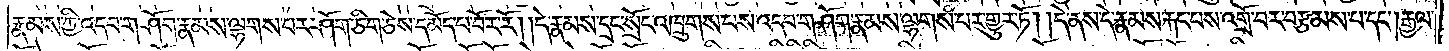རྣམས་ཀྱི་འདབ་གཤོག་རྣམས་ལྷགས་པར་ཤོག་ཅིག་ཅེས་དམོད་པ་བོར་རོ། །དེ་རྣམས་དྲང་སྲོང་འཁྲུགས་པས་འདབ་གཤོག་རྣམས་ལྷགས་པར་གྱུར་ཏོ། །དེ་ནས་དེ་རྣམས་རྐང་པས་འགྲོ་བར་བརྩམས་པ་དང༌། རྒྱལ་
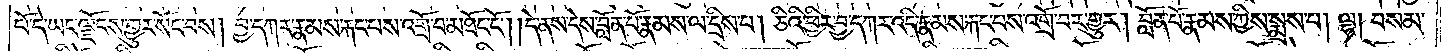པོ་དེ་ཡང་ལྗོངས་གྱུར་སོང་བས། བྱ་དཀར་རྣམས་རྐང་པས་འགྲོ་བ་མཐོང་ངོ༌། །དེ་ནས་དེས་བློན་པོ་རྣམས་ལ་དྲིས་པ། ཅིའི་ཕྱིར་བྱ་དཀར་འདི་རྣམས་རྐང་པས་འགྲོ་བར་གྱུར། བློན་པོ་རྣམས་ཀྱིས་སྨྲས་པ། ལྷ། བསམ་
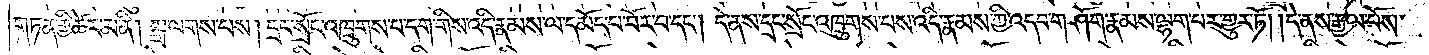གཏན་གྱི་ཚེར་མ་ནི། སྒྲ་ལགས་པས། དྲང་སྲོང་འཁྲུགས་པ་དག་གིས་འདི་རྣམས་ལ་དམོད་པ་བོར་བ་དང༌། དེ་ནས་དྲང་སྲོང་འཁྲུགས་པས་འདི་རྣམས་ཀྱི་འདབ་གཤོག་རྣམས་ལྷག་པར་གྱུར་ཏོ། །དེ་ནས་རྒྱལ་པོས་
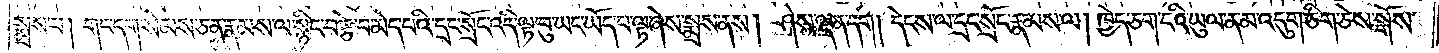སྨྲས་པ། གང་དག་སེམས་ཅན་རྣམས་ལ་སྙིང་བརྩེ་བ་མེད་པའི་དྲང་སྲོང་འདི་ལྟ་བུ་ཡང་ཡོད་པ་ལྟ་ཞེས་སྨྲས་ནས། ཤེས་ལྡན་དག། དེངས་ལ་དྲང་སྲོང་རྣམས་ལ། ཁྱེད་ཅག་ངའི་ཡུལ་ན་མ་འདུག་ཅིག་ཅེས་སྒོས་
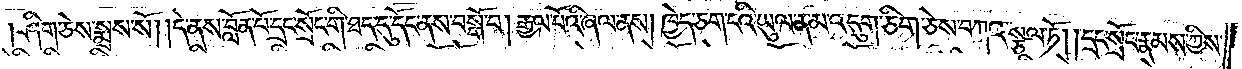ཤིག་ཅེས་སྨྲས་སོ། །དེ་ནས་བློན་པོ་དྲང་སྲོང་གི་ཐད་དུ་དོང་ནས་བསྒོ་བ། རྒྱལ་པོའི་ཞལ་ནས། ཁྱེད་ཅག་ངའི་ཡུལ་ན་མ་འདུག་ཅིག་ཅེས་བཀའ་སྩལ་ཏོ། །དྲང་སྲོང་རྣམས་ཀྱིས་
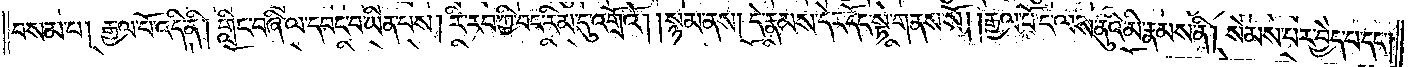བསམ་པ། རྒྱལ་པོ་འདི་ནི། གླིང་བཞི་ལ་དབང་བ་ཡིན་པས། རི་རབ་ཀྱི་བང་རིམ་དུ་འགྲོའོ། །སྙམ་ནས། དེ་རྣམས་དེར་དོང་སྟེ་གནས་སོ། །རྒྱལ་པོ་ང་ལས་ནུའི་མི་རྣམས་ནི། སེམས་པར་བྱེད་པ་དང༌།
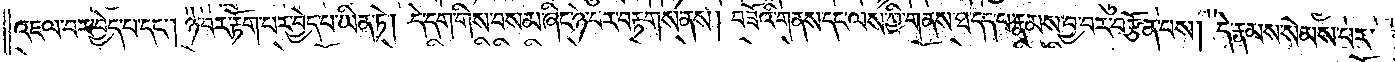འཇལ་བར་བྱེད་པ་དང༌། ཉེ་བར་རྟོག་པར་བྱེད་པ་ཡིན་ཏེ། དེ་དག་གིས་བསམ་ཞིང་ཉེ་བར་བརྟགས་ནས། བཟོའི་གནས་དང་ལས་ཀྱི་གནས་ཐ་དད་པ་རྣམས་བྱ་བར་བརྩོན་པས། དེ་རྣམས་སེམས་པར་
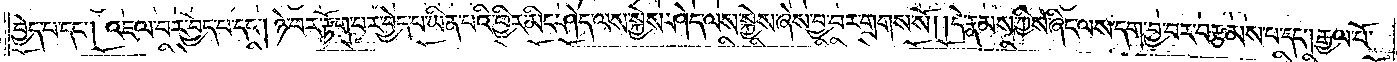བྱེད་པ་དང༌། འཇལ་བར་བྱེད་པ་དང༌། ཉེ་བར་རྟོག་པར་བྱེད་པ་ཡིན་པའི་ཕྱིར་མིང་ཤེད་ལས་སྐྱེས་ཤེད་ལས་སྐྱེས་ཞེས་བྱ་བར་གྲགས་སོ། །དེ་རྣམས་ཀྱིས་ཞིང་ལས་དག་བྱ་བར་བརྩམས་པ་དང༌། རྒྱལ་པོ་
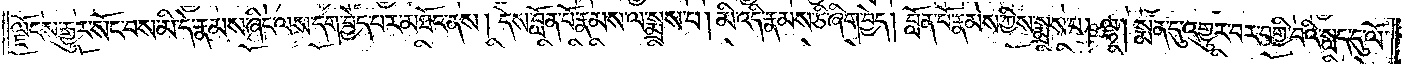ལྗོངས་རྒྱུར་སོང་བས་མི་དེ་རྣམས་ཞིང་ལས་དག་བྱེད་པར་མཐོང་ནས། དེས་བློན་པོ་རྣམས་ལ་སྨྲས་པ། མི་འདི་རྣམས་ཅི་ཞིག་བྱེད། བློན་པོ་རྣམས་ཀྱིས་སྨྲས་པ། ལྷ། སྨན་དུ་འགྱུར་བར་བགྱི་བའི་སླད་དུ་ལོ་
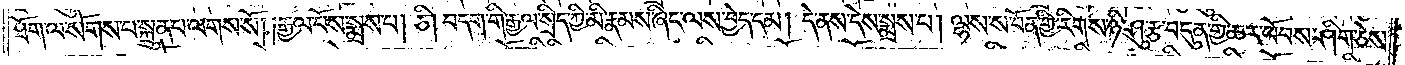ཐོག་ལ་སོགས་པ་སྐྲུན་པ་ལགས་སོ། །རྒྱལ་པོས་སྨྲས་པ། ཅི། བདག་གི་རྒྱལ་སྲིད་ཀྱི་མི་རྣམས་ཞིང་ལས་བྱེད་དམ། དེ་ནས་དེས་སྨྲས་པ། ལྷས་ས་བོན་གྱི་རིགས་ཉི་ཤུ་རྩ་བདུན་གྱི་ཆར་ཕོབས་ཤིག་ཅེས་
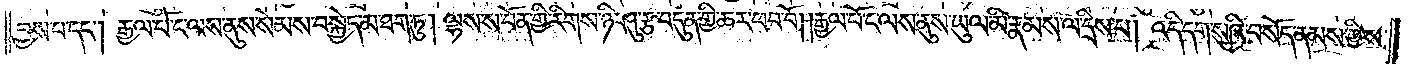བྱས་པ་དང༌། རྒྱལ་པོ་ང་ལས་ནུས་སེམས་བསྐྱེད་མ་ཐག་ཏུ། ལྷས་ས་བོན་གྱི་རིགས་ཉི་ཤུ་རྩ་བདུན་གྱི་ཆར་ཕབ་བོ། །རྒྱལ་པོ་ང་ལས་ནུས་ཡུལ་མི་རྣམས་ལ་དྲིས་པ། འདི་དག་སུའི་བསོད་ནམས་ཀྱིས་
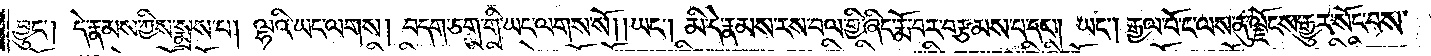བྱུང༌། དེ་རྣམས་ཀྱིས་སྨྲས་པ། ལྷའི་ཡང་ལགས། བདག་ཅག་གི་ཡང་ལགས་སོ། །ཡང༌། མི་དེ་རྣམས་རས་བལ་གྱི་ཞིང་རྨོ་བར་བརྩམས་པ་དང༌། ཡང༌། རྒྱལ་པོ་ང་ལས་ནུ་ལྗོངས་རྒྱུར་སོང་བས་
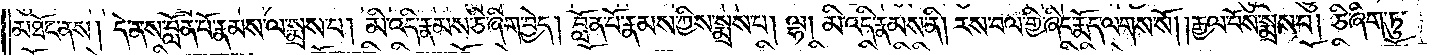མཐོང་ནས། དེ་ནས་བློན་པོ་རྣམས་ལ་སྨྲས་པ། མི་འདི་རྣམས་ཅི་ཞིག་བྱེད། བློན་པོ་རྣམས་ཀྱིས་སྨྲས་པ། ལྷ། མི་འདི་རྣམས་ནི། རས་བལ་གྱི་ཞིང་རྨོད་ལགས་སོ། །རྒྱལ་པོས་སྨྲས་པ། ཅི་ཞིག་ཏུ་
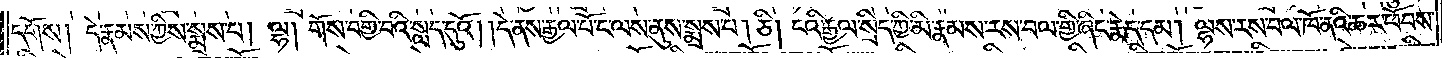དགོས། དེ་རྣམས་ཀྱིས་སྨྲས་པ། ལྷ། གོས་བགྱི་བའི་སླད་དུའོ། །དེ་ནས་རྒྱལ་པོ་ང་ལས་ནུས་སྨྲས་པ། ཅི། ངའི་རྒྱལ་སྲིད་ཀྱི་མི་རྣམས་རས་བལ་གྱི་ཞིང་རྨེད་དམ། ལྷས་རས་བལ་ཁོ་ནའི་ཆར་ཕོབས་
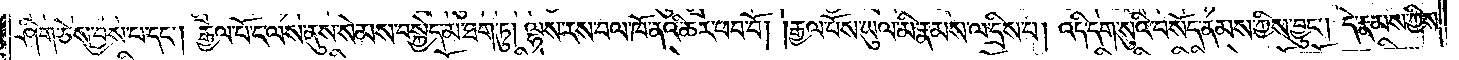ཤིག་ཅེས་བྱས་པ་དང༌། རྒྱལ་པོ་ང་ལས་ནུས་སེམས་བསྐྱེད་མ་ཐག་ཏུ། ལྷས་རས་བལ་ཁོ་ནའི་ཆར་ཕབ་བོ། །རྒྱལ་པོས་ཡུལ་མི་རྣམས་ལ་དྲིས་པ། འདི་དག་སུའི་བསོད་ནམས་ཀྱིས་བྱུང༌། དེ་རྣམས་ཀྱིས་
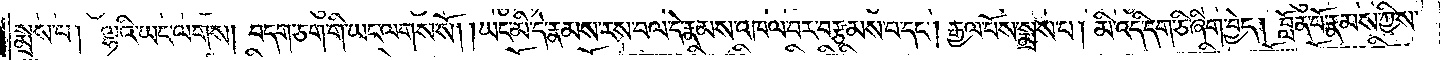སྨྲས་པ། ལྷའི་ཡང་ལགས། བདག་ཅག་གི་ཡང་ལགས་སོ། །ཡང་མི་དེ་རྣམས་རས་བལ་དེ་རྣམས་འཁལ་བར་བརྩམས་པ་དང༌། རྒྱལ་པོས་སྨྲས་པ། མི་འདི་དག་ཅི་ཞིག་བྱེད། བློན་པོ་རྣམས་ཀྱིས་
